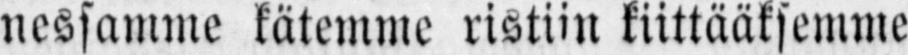nessamme kätemme ristiin kiittääksemme
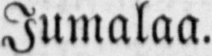Jumalaa.
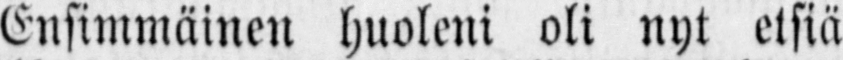Ensimmäinen huoleni oli nyt etsiä
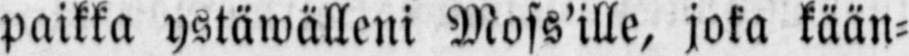paikka ystäwälleni Moss'ille, joka kään-
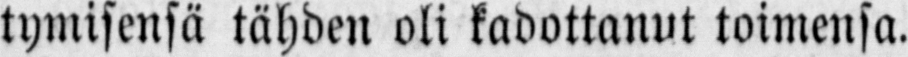tymisensä tähden oli kadottanut toimensa.
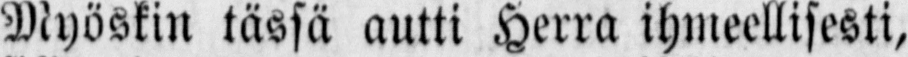Myöskin tässä autti Herra ihmeellisesti,
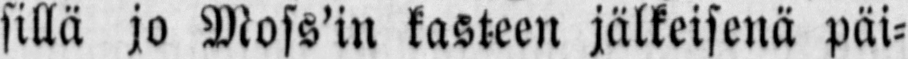sillä jo Moss'in kasteen jälkeisenä päi-
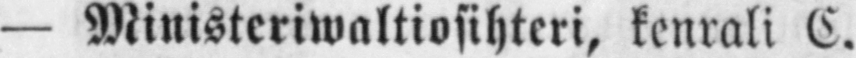— Ministeriwaltiosihteri, kenrali C.
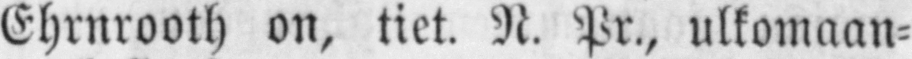Ehrnrooth on, tiet. N. Pr., ulkomaan-
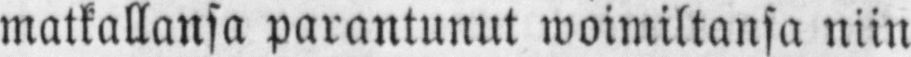matkallansa parantunut woimiltansa niin
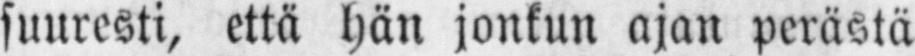suuresti, että hän jonkun ajan perästä
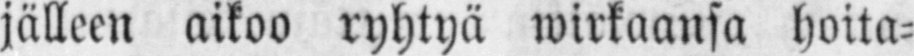jälleen aikoo ryhtyä wirkaansa hoita-
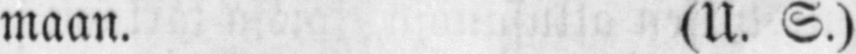maan. (U. S.)
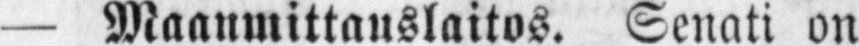— Maanmittauslaitos. Senati on
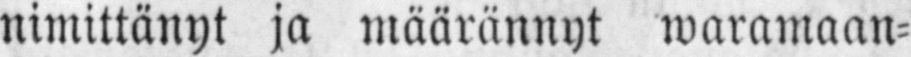nimittänyt ja määrännyt waramaan-
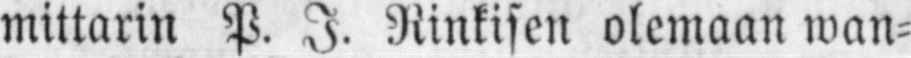mittarin P. I. Rinkisen olemaan wan-
